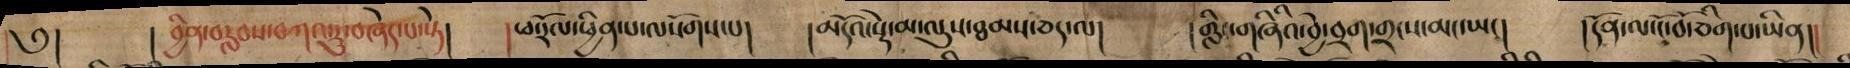༅། ། བྱིན་བརླབས་བཀའ་རུ་བཞེད་པ་སྟེ། །ཕ་རོལ་ཕྱིན་པ་ལ་སོགས་པ། །མདོའ་སྡེ་མ་ལུས་ཐམས་ཅད་ལ། །གླིང་གཞིའི་བྱེ་བྲག་གྲངས་མང་ཡང། །དོན་ལ་ངོ་བོ་ཅིག་པ་ཡིན།།
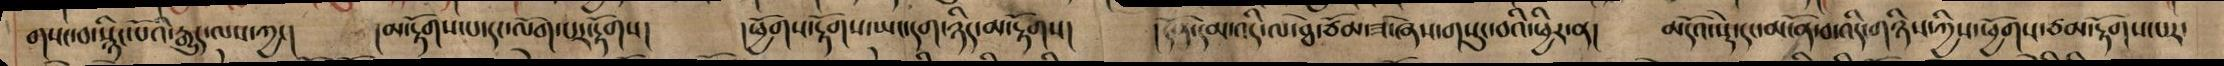གསང་བ་སྙིང་པོའི་རྒྱུད་ལས་ཀྱང། །མ་རྟོགས་པ་དང་ལོག་པར་རྟོགས། །ཕྱོགས་རྟོགས་ཡང་དག་ཉིད་མ་རྟོགས། །དོན་དམ་འདི་ལ་ཐེ་ཙོམ་ཟ་ཞེས་གསུང་བའི་ཕྱིར་ན། མདོའ་སྡེ་དང་མངོན་བ་འདི་གཉིས་ཀྱིས་ཕྱོགས་ཙམ་རྟོགས་པར་
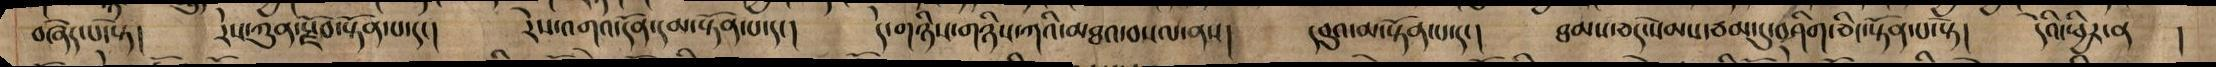བཞེད་པ་སྟེ། རེས་ཀུན་སྫོབ་སྟོན་པ་དང། རེས་འགའ་དོན་དམ་སྟོན་པ་དང། དེ་གཉིས་གཉིས་ཀའི་མཐའ་བསལ་ནས། དབུའ་མ་སྟོན་པ་དང། ཐམས་ཅད་སེམས་ཙམ་དུ་བཤིག་ཅིང་སྟོན་པ་སྟེ། དེའི་ཕྱིར་ན །
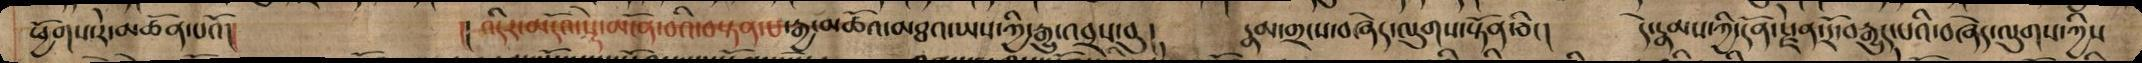ཕྱོགས་རེ་མཚོན་པའོ།། །།འདིར་མདོའ་སྡེ་མངོན་བའི་བསྟན་པ་རྒྱ་མཚོའ་མཐའ་ཡས་ཀྱི་རྒྱུ་འབྲས་བུ། རྣམ་གྲངས་བཞེད་ལུགས་སྟོན་ཅིང། དེ་རྣམས་ཀྱི་དོན་སྫེན་རོ་བརྒྱུད་པའི་བཞེད་ལུགས་ཀྱིས
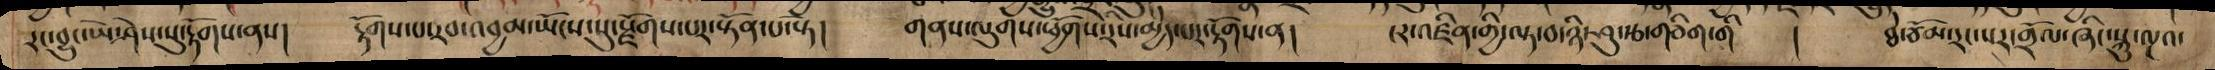རང་བྱུང་ཡེ་ཤེས་སུ་རྟོགས་ནས། རྟོགས་པ་རབ་འབྱམ་ཡོངས་སུ་སྫོགས་པར་སྟོན་པ་སྟེ། གནས་ལུགས་ཕྱོགས་རིས་མྱེད་པར་རྟོགས་ན། ངར་འཛིན་གྱི་ལྟ་བ་ཉི་ཤུ་རྩ་གཅིག་གི ། ཐེ་ཙོམ་རང་སར་གྲོལ་ཞིང་སྐུ་ལྔའ་
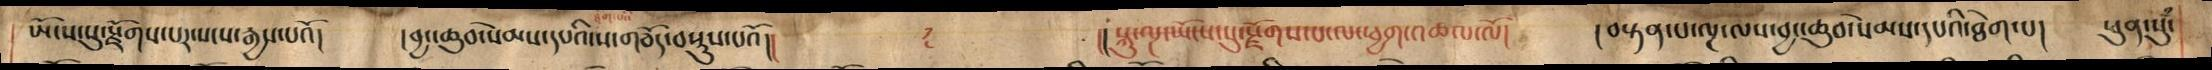ཡོངས་སུ་སྫོགས་པར་སངས་རྒྱས་པའོ། །བྱང་ཆུབ་སེམས་དཔའི་ས་གཅོད་བསྡུས་པའོ།། །།སྐུ་ལྔ་ཡོངས་སུ་སྫོགས་པ་ལ་ཕྱག་འཚལ་ལོ། །བསྟན་པ་ལྔ་ལས་བྱང་ཆུབ་སེམས་དཔའི་ཐེག་པ། ཕུན་སུཾ་
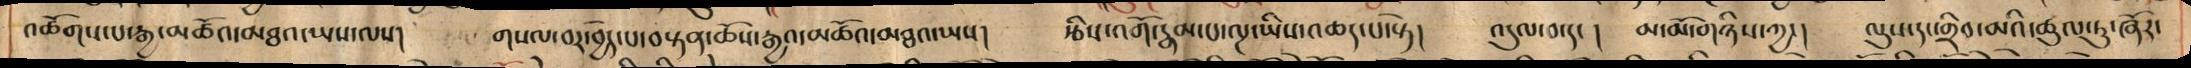འཚོགས་པ་རྒྱ་མཚོའ་མཐའ་ཡས་ལས། གསལ་བར་བྱེད་པ་བསྟན་ཆོས་རྒྱའ་མཚོའ་མཐའ་ཡས། རྩིས་འགོ་རྣམ་པ་ལྔ་ཡིས་འཆད་པ་སྟེ། འདུལ་བ་དང ། མ་མ་ོགཉིས་ཀྱང། ལུས་དང་གྲིབ་མའི་ཚུལ་ཏུ་ཞོར་
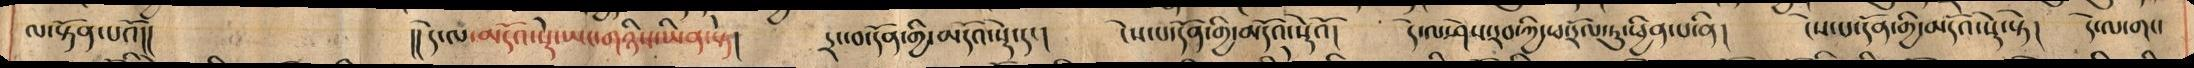ལ་སྟོན་པའོ།། །།དེ་ལ་མདོའ་སྡེ་ཡང་གཉིས་ཡིན་སྟེ། དྲང་བ་དོན་གྱི་མདོའ་སྡེ་དང། ངེས་པ་དོན་གྱི་མདོའ་སྡེའོ། དེ་ལ་ཤེས་རབ་ཀྱི་ཕ་རོལ་ཏུ་ཕྱིན་པ་ནི། ངེས་པ་དོན་གྱི་མདོའ་སྡེ་སྟེ། དེ་ལ་གང་
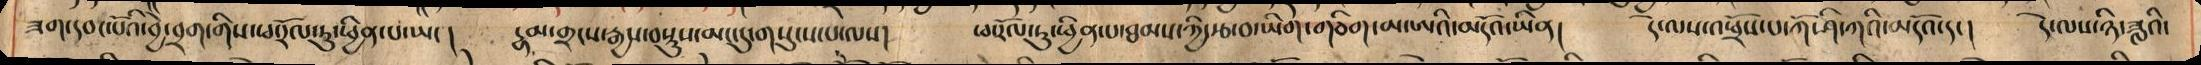ཟག་དབང་པོའི་བྱེ་བྲག་གིས་ཕ་རོལ་ཏུ་ཕྱིན་པ་ཡང། རྣམ་གྲངས་རྒྱས་བསྡུས་མང་དུ་གསུངས་པ་ལས། ཕ་རོལ་ཏུ་ཕྱིན་པ་ཐམས་ཀྱི་རྩ་བ་ཡིག་གཅིག་མ་ཨའི་མདོའ་ཡིན། དེ་ལས་འཕྲོས་པ་ཀོ་ཤི་ཀའི་མདོའ་དང། དེ་ལས་ཉི་ཟླའི་
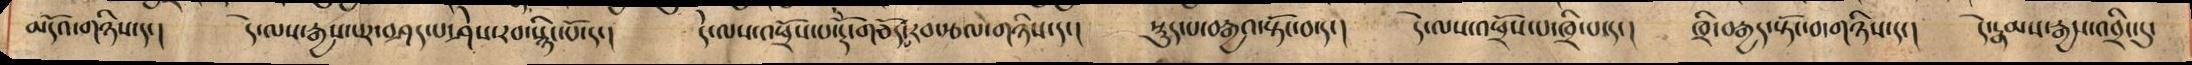མདོའ་གཉིས་དང ། དེ་ལས་རྒྱས་པར་བཤད་པ་ཤེས་རབ་སྙིང་པོ་དང། དེ་ལས་འཕྲོས་པ་རྡོ་རྗེ་གཅོད་རབ་རྩལ་གཉིས་དང། སྡུད་པ་བརྒྱའ་སྟོང་བ་དང། དེ་ལས་འཕྲོས་པ་ཁྲི་པ་དང ། ཁྲི་བརྒྱས་སྟོང་བ་གཉིས་དང། དེ་རྣམས་རྒྱས་འབྲིང་དུ་
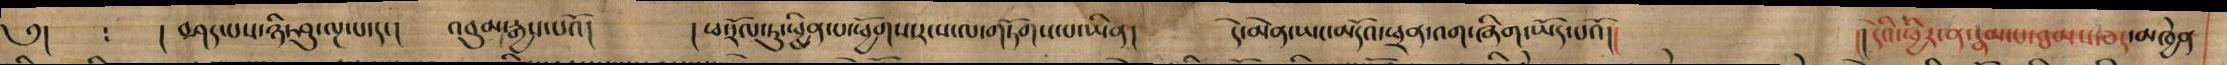༅། : ། བཤད་པས་ཉི་ཤུ་ལྔ་པ་དང། འབུམ་རྒྱས་པའོ། །ཕ་རོལ་ཏུ་སྤྱིན་པ་ཕྱོགས་ར་ས་ལ་གཏོགས་པ་ཡིན། དེ་མེན་ཡང་མདོའ་ཕྲན་འག་ཞིག་ཡོད་པའོ།། །།དེའི་ཕྱིར་ན་རྣམ་པ་ཐམས་ཅད་མཁྱེན
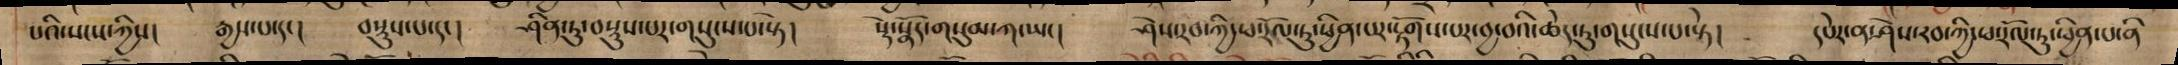པའི་སང་ཀྱིས། རྒྱས་པ་དང ། བསྡུས་པ་དང། ཤིན་ཏུ་བསྡུས་པར་གསུངས་པ་སྟེ། སྡེ་སྣོད་གསུམ་ཀ་ཡང། ཤེས་རབ་ཀྱི་ཕ་རོལ་ཏུ་ཕྱིན་པར་རྟོགས་པར་བྱ་བའི་ཆེད་ཏུ་གསུངས་པ་སྟེ། དཔེར་ན་ཤེས་རབ་ཀྱི་ཕ་རོལ་ཏུ་ཕྱིན་པ་ནི
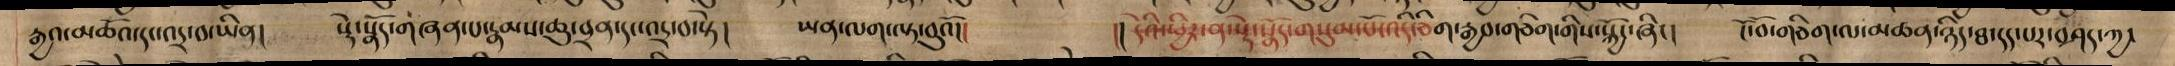རྒྱའ་མཚོའ་དང་འདྲ་བ་ཡིན། སྡེ་སྣོད་གཞན་པ་རྣམས་ཆུ་བྲན་དང་འདྲ་བ་སྟེ། ཡན་ལག་ལྟ་བུའོ།། །།དེའི་ཕྱིར་ན་སྡེ་སྣོད་གསུམ་པོ་འདི་ཅིག་རྒྱབ་གཅིག་གིས་སྐྱོང་ཞིང། ངོ་བོ་གཅིག་ལ་མཚན་ཉིད་ཐ་དད་པར་བཤད་ཀྱ་
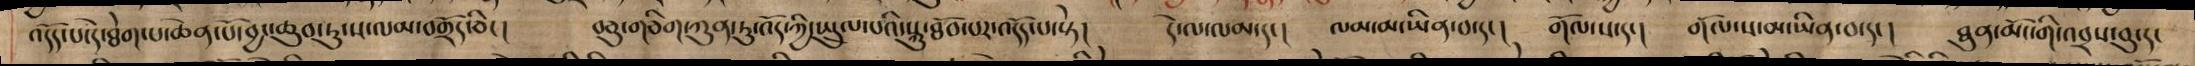འདོད་པ་དེ་ཐེག་པ་ཆེན་པོ་བྱང་ཆུབ་ཏུ་ས་ལམ་བགྲོད་ཅིང ། བཅུ་གཅིག་ཀུན་ཏུ་འོད་ཀྱི་སྤྲུལ་པའི་སྐུ་ཐོབ་པར་འདོད་པ་སྟེ། དེ་ལ་ལམ་དང། ལམ་མ་ཡིན་པ་དང། གོལ་ས་དང། གོལ་ས་མ་ཡིན་བ་དང། ཐུན་མོང་གི་འབྲས་བུ་དང
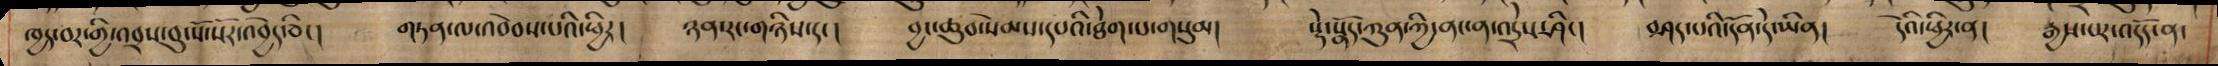ཁྱད་བར་གྱི་འབྲས་བུ་སོ་སོར་འབྱེད་ཅིང། གཏན་ལ་འབེབས་པའི་ཕྱིར། ཉན་རང་གཉིས་དང། བྱང་ཆུབ་སེམས་དཔའི་ཐེག་པ་གསུམ། སྡེ་སྣོད་ཀུན་ཀྱི་ནང་ན་འདྲེས་ཤིང། བཤད་པའི་དོན་དེ་ཡིན། དེའི་ཕྱིར་ན། རྒྱས་པར་འདོད་ན་
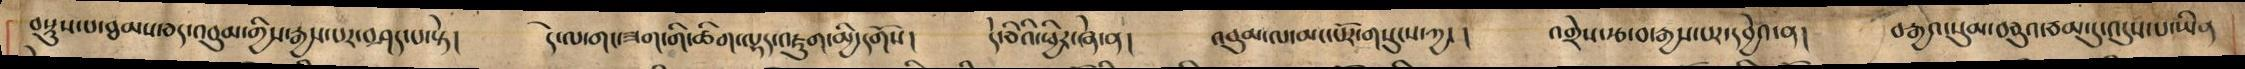བསྡུས་པ་ཐམས་ཅད་འབུམ་གྱིས་རྒྱས་པར་བཤད་པ་སྟེ། དེ་ལ་གང་ཟག་གི་ཚིག་ལྷད་འཇུག་མྱི་དགོས། དེ་ཅིའི་ཕྱིར་ཞེ་ན། འབུམ་ལ་མང་པོར་གསུངས་ཀྱང ། འགྲེས་རྩ་བ་རྒྱས་པར་དབྱེའ་ན། བརྒྱའ་སུམ་བཅུའ་ཙམ་དུ་འདུས་པ་ཡིན
